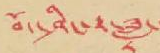བོད་ཤིང་རྟ་ཟླ་
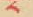༨
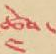ཚེས་
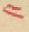༤
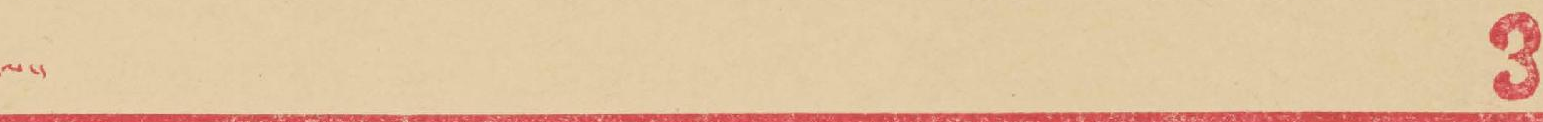ལ་། 3
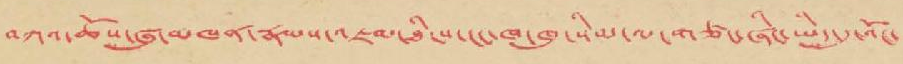བཀའ་ཆོས་ཞུ་མཁན་རྣམས་འཇམ་ཐིངས་ངང་ཁ་ཁུ་སིམ་ལ་གཙང་ཞིང་ཡིད་དུ་འོང་
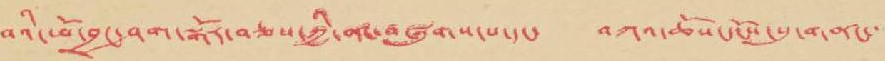བའི་ཕོ་བྲང་ཤག་སྒོར་བཅས་ཀྱི་ནང་བཞུགས་པ་དང་ བཀའ་ཆོས་དངོས་སུ་གནང་
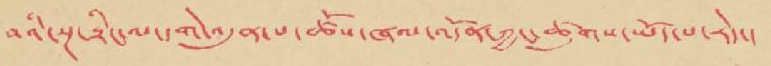བའི་སྔ་རྟིང་ལ་དགེ་འདུན་པ་ཚོས་ཞལ་འདོན་ཀྱང་ཚུགས་ཡོད་པ་རེད་།
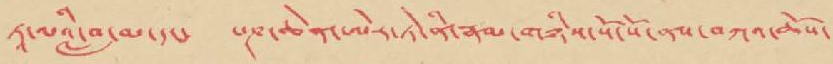ཏཱ་ལའི་བླ་མ་དང་ པཎ་ཆེན་ཨེར་ཏེ་ནི་རྣམ་གཉིས་སོ་སོ་ནས་བཀའ་ཆོས་
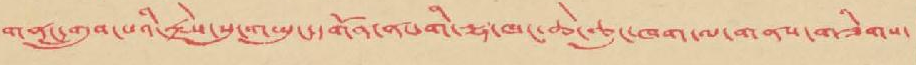གནང་གྲུབ་པའི་རྗེས་སུ་གཡུང་དགོན་ནང་གི་ལྷ་ཁང་ཆེ་ཆུང་ཁག་ལ་གནས་གཟིགས་
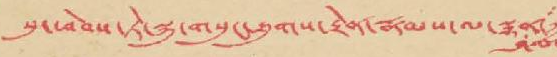སུ་ཕེབས་ཏེ་སྐུ་གསུང་ཐུགས་རྟེན་རྣམས་ལ་སྙན་
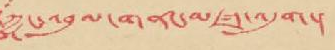ཀྱང་འབུལ་གནང་མཛད་འདུག་།
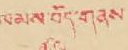ཁམས་བོད་གནས་
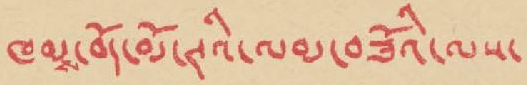ཁམས་བོད་མོ་ཊའི་ལམ་བཟོའི་ལས་
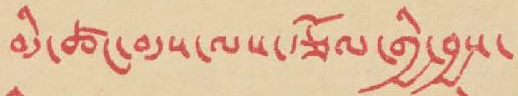མི་ཚང་མས་ལས་རྩོལ་གྱི་བྱས་
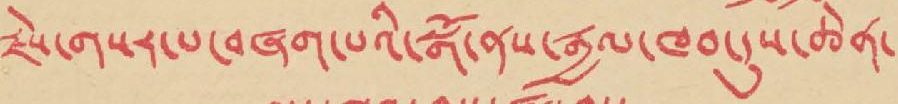རྗེས་གསར་པ་བཞག་པའི་སྒོ་ནས་རྒྱལ་ཁབ་དུས་ཆེན་
